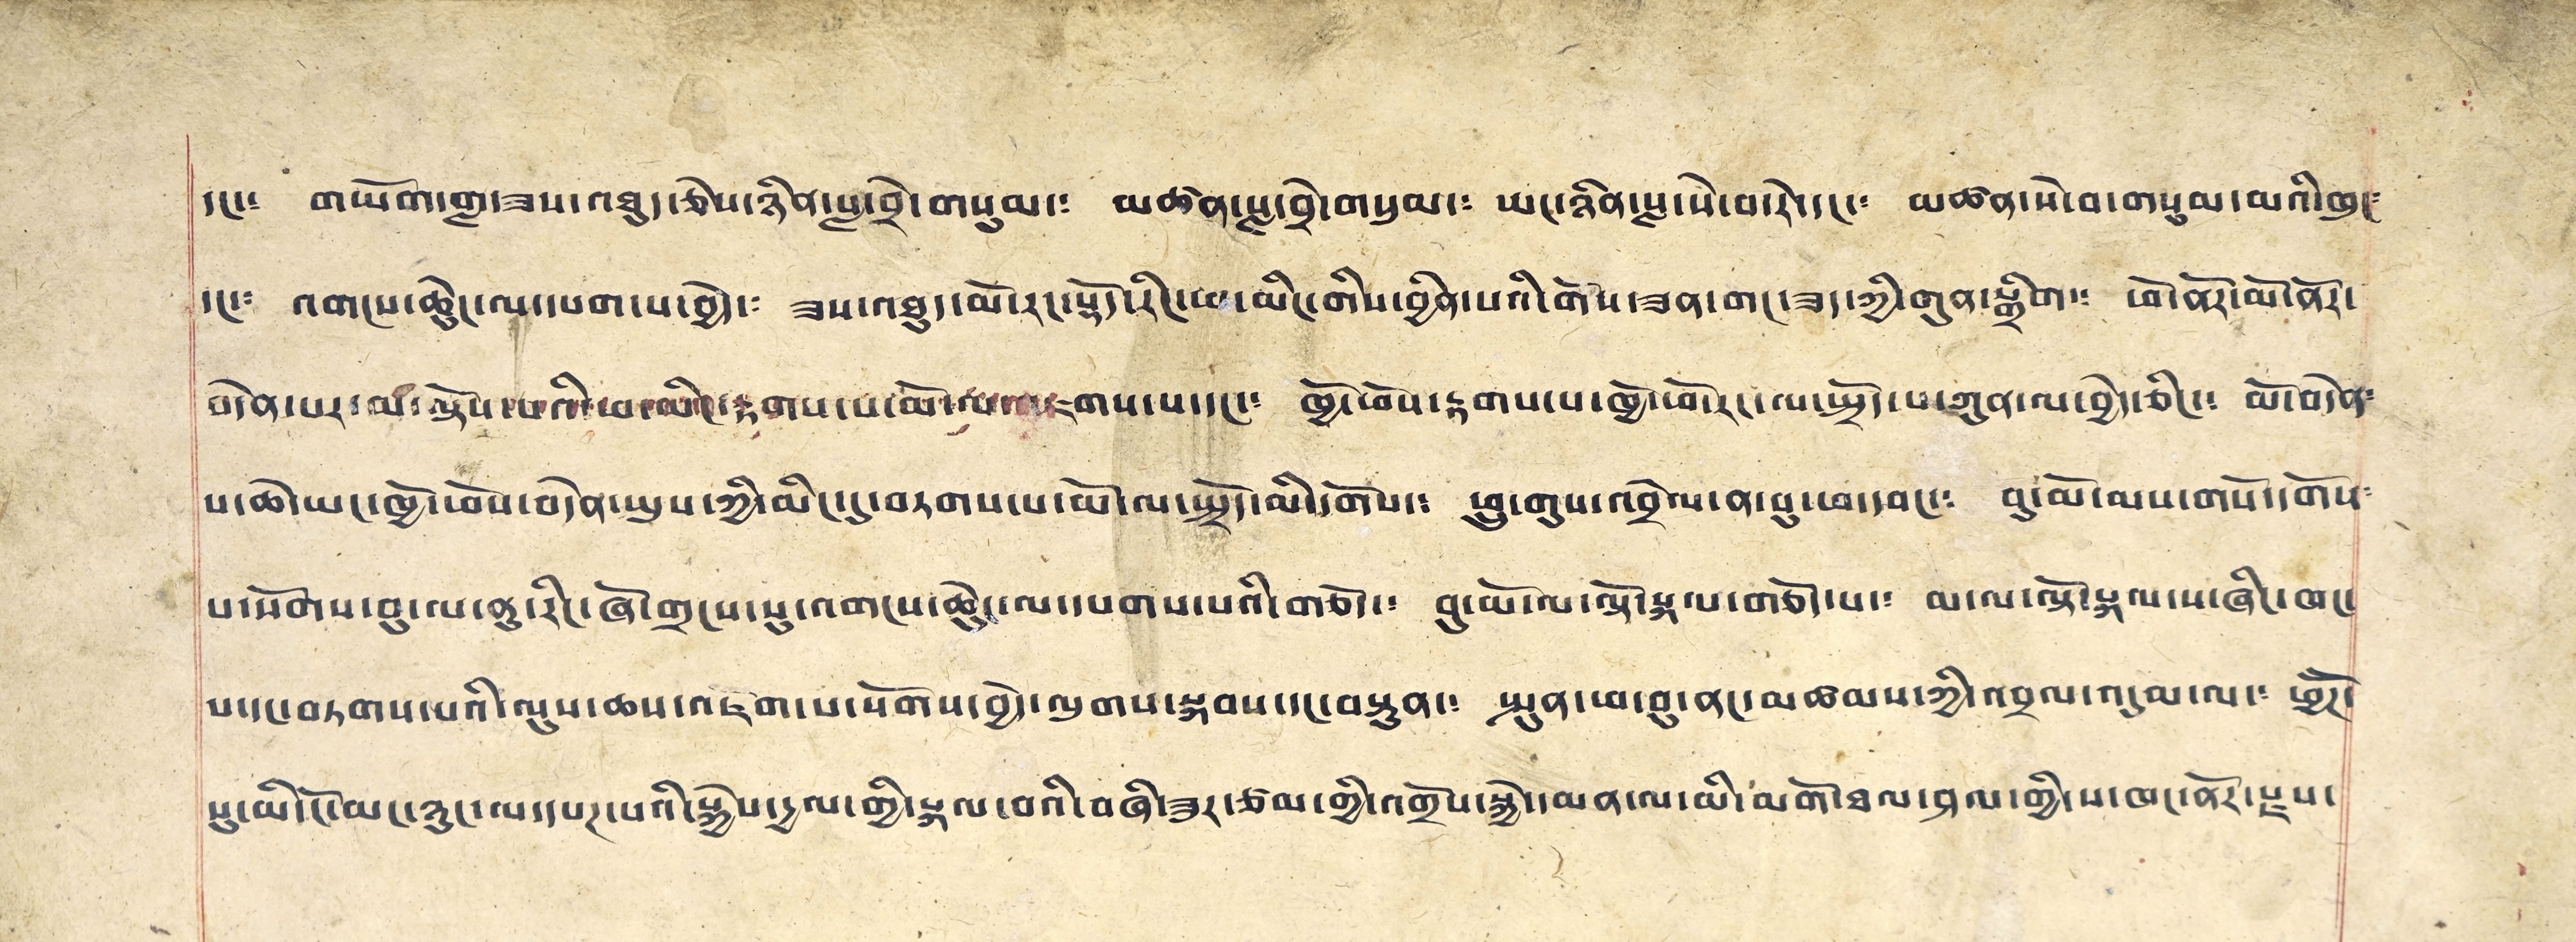དང་༴ གཡོག་གླ་ཟས་འཐུད་ཅེས་ཉིན་སླ་བྲེ་གསུམ་༴ མཚན་སླ་བྲེ་གསུམ་༴ ཡང་ཉིན་སླ་སེ་བསེ་དང་༴ མཚན་སེ་བ་གསུམ་མའི་ཁུང༴
དང་༴ འགངས་ཆེ་ཆུང་ལ་དཔག་པ་བྱེད་༴ ཟས་འཐུད་མོ་རང་སྟོད་རིང་ཕ་མིང་གིས་བྱིན་པའི་གོས་ཟན་གང་ཟད་ཀྱི་གུན་སྒྲིག་༴ ཕོ་ནོར་མོ་ནོར་
བདེན་པར་མ་ལྟོས་པའི་ཕ་མིང་རྟགས་པ་མོ་ལ་འཇགས་པ་དང་༴ ཁྱོ་ཕོས་རྟགས་པ་ཁྱོ་ཕོ་རེང་ལ་སྤྲོད་པ་ཀུན་ལ་བྱེད་ཅིང་༴ མོ་བདེན༴
པ་ཆེ་ཡང་ཁྱོ་མོས་བདེན་ཡུས་ཀྱི་མིང་དུ་བཏགས་པ་ཕོ་ལ་སྤྲོད་མི་དགོས་༴ ཕྲུ་གུས་འབྲེལ་ན་བུ་ཕ་དབང་༴ བུ་མོ་མས་གསོ་དགོས༴
པ་སོགས་བུ་ལ་ནུ་རིང་ཞོ་གྲངས་སུ་འགངས་ཆེ་ཆུང་ལ་དཔགས་པའི་གཅོད་༴ བུ་མོ་ལ་ལྟོ་སྐལ་གཅོད་པ་༴ མ་ལ་ལྟོ་སྐལ་པ་ཞིང་ཁང་
པ་དང་བཏགས་པའི་ལུས་ཆས་འཇོག་པ་སོགས་བྱེད་ལུགས་སྐབས་དང་བསྟུན་༴ སྤུན་ཕ་བུ་ནང་མཚམས་ཀྱི་འབྲལ་འདུམ་ལ་༴ ཕྱོཊོ་
སུ་ཡི་ངོ་མང་ཉུང་ལ་དཔཊ་པའི་སྐྱེས་དྱལ་གྱི་སྐལ་བའི་བཞི་ཟུར་ཙམ་གྱི་འགྲོས་སྐྱེ་མན་ལ་མི་མགོ་ཐལ་ཤལ་གྱིས་ཁང་ནོར་རྫས་
